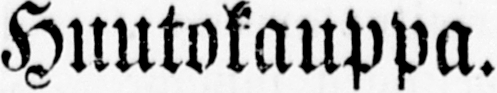Huutokauppa.
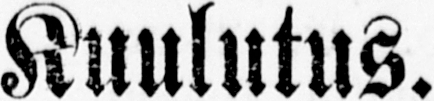Kuulutus.
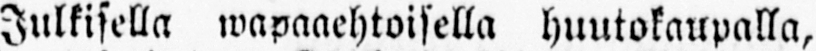Julkisella wapaaehtoisella huutokaupalla,
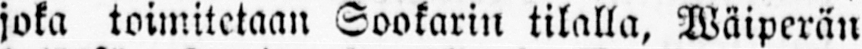joka toimitetaan Sookarin tilatta, Wäiperän
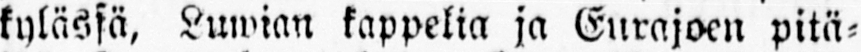kylässä, Luwian kappelia ja Eurajoen pitä-
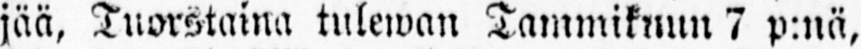jää, Tuorstaina tulewan Tammikuun 7 p:nä,
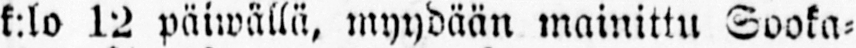k.lo 12 päiwällä, myydään mainittu Sooka-
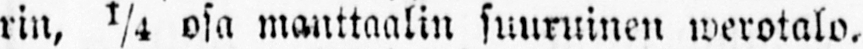rin, ¼ osa manttaalin suuruinen werotalo.
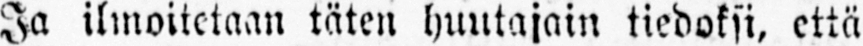Ja ilmoitetaan täten huutajan, tiedoksi, että
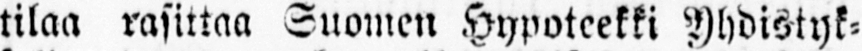tilaa rasittaa Suomen Hypoteekki yhdistyk-
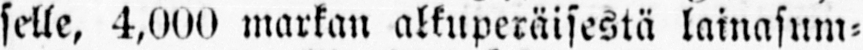selle, 4,000 markan alkuperäisestä lainasum-
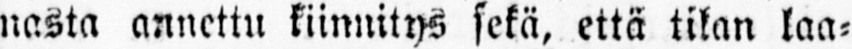masta annettu kiinnitys sekä, että tikan laa-
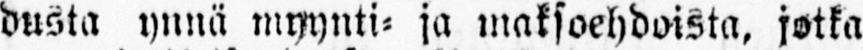dusta ynnä myynti- ja maksoehdoista, jotka
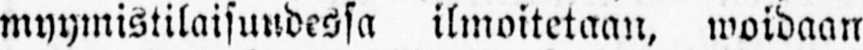myymistilaisuudessa ilmoitetaan, woidaan
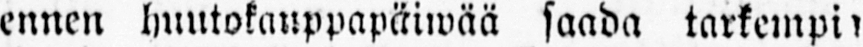ennen huutokauppapäiwää saada tarkempi,
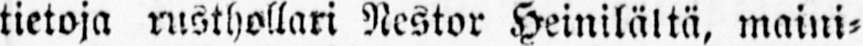tietoja rusthollari Nestor Heinilältä, maini-
